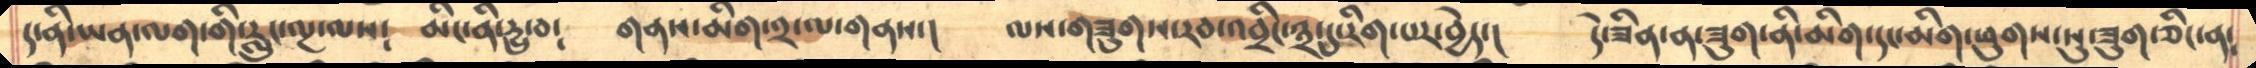ད་ནི་ཡན་ལག་གི་རླུང་ལྔ་ལས༴    མིང་ནི་དྱུ་བ༴    གནས་མིག་༢་ལ་གནས་།    ལས་གཟུགས་རབ་འབྲིང་༣་དུ་རིག་པར་བྱེད་།   དེ་ཟིན་ན་ཟུག་ནི་མིག་དང་མིག་ཕུགས་སུ་ཟུག་ཅིང་ན༴
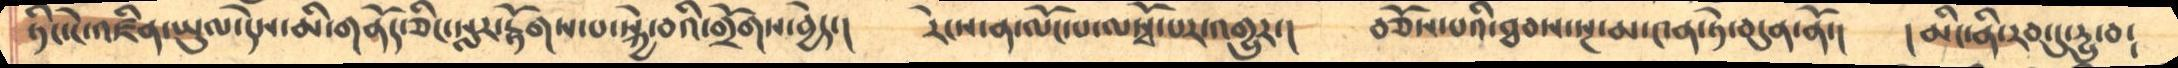ཏིང་ངེ་འཛིན་ཡུལ་དེས་མི་གནོད་ཅིང་སླར་རྟོགས་པ་སྐྱེ་བའི་གྲོགས་བྱེད་།    རེངས་ན་ལོང་པ་ལསྭོ་པར་འགྱུར་།   བཅོས་པའི་ཐབས་སྔ་མ་༤ན་ཏེ་བདུན་ནོ་།   །མིང་ནི་རབ་དུ་དྱུ་བ༴
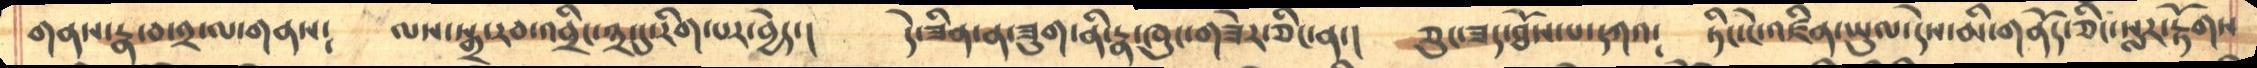གནས་རྣ་བ་༢་ལ་གནས༴      ལས་སྒྲ་རབ་འབྲིང་༣་དུ་རིག་པར་བྱེད་།   དེ་ཟིན་ན་ཟུག་ནི་རྣ་ཁུང་གཟེར་ཅིང་ན་།    ཅུང་ཟད་ཐོས་པ་དཀའ༴   ཏིང་ངེ་འཛིན་ཡུལ་དེས་མི་གནོད་ཅིང་སླར་རྟོགས
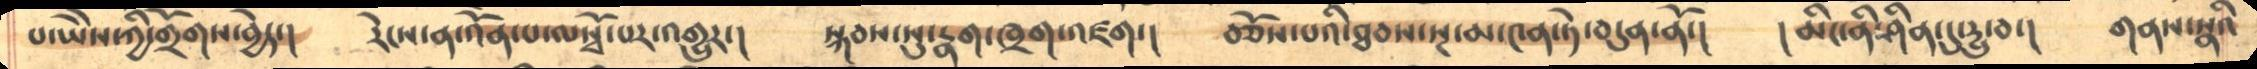པ་ཡཻས་ཀྱི་གྲོགས་བྱེད་།     རེངས་ན་འོན་པ་ལསྭོ་པར་འགྱུར་།      སྐབས་སུ་རྣག་ཁྲག་འཛག་།    བཅོས་པའི་ཐབས་སྔ་མ་༤ན་ཏེ་བདུན་ནོ་།    །མིང་ནི་ཤིན་དུ་དྱུ་བ་།   གནས་སྣའི
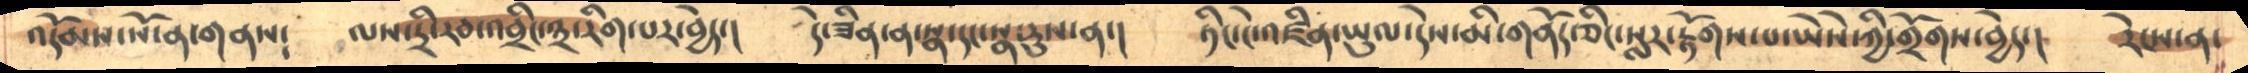འདོམས་སོ་ན་གནས༴     ལས་དྲི་རབ་འབྲིང་༣་རིག་པར་བྱེད་།     དེ་ཟིན་ན་སྣ་དང་སྣ་རུས་ན་།   ཏིང་ངེ་འཛིན་ཡུལ་དེས་མི་གནོད་ཅིང་སླར་རྟོགས་པ་ཡཻས་ཀྱི་གྲོགས་བྱེད་།   རེངས་ན་
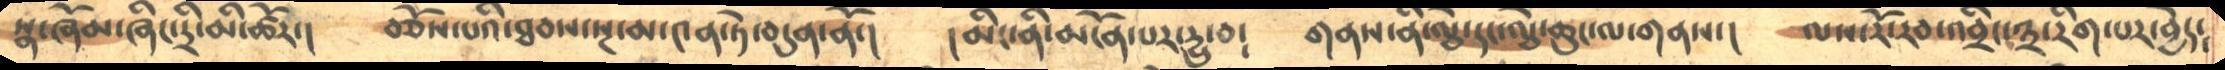སྣ་ཞོམ་ཞིང་དྲི་མི་ཚོར་།    བཅོས་པའི་ཐབས་སྔ་མ་༤ན་ཏེ་བདུན་ནོ་།     །མིང་ནི་མངོན་པར་དྱུ་བ༴   གནས་ནི་ལྕེ་དང་ལྕེ་ཆུང་ལ་གནས་།    ལས་རོ་རབ་འབྲིང་༣་རིག་པར་བྱེད༴
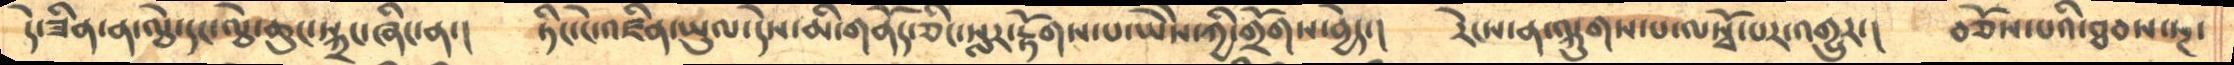དེ་ཟིན་ན་ལྕེ་དང་ལྕེ་ཆུང་སྐྲང་ཞིང་ན་།      ཏིང་ངེ་འཛིན་ཡུལ་དེས་མི་གནོད་ཅིང་སླར་རྟོགས་པ་ཡཻས་ཀྱི་གྲོགས་བྱེད་།     རེངས་ན་ལྐུགས་པ་ལསྭོ་པར་འགྱུར་།   བཅོས་པའི་ཐབས་སྔ་་
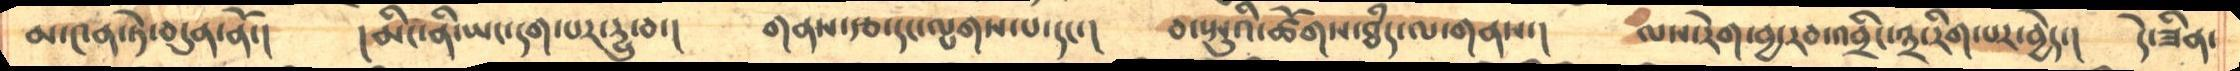མ་༤ན་ཏེ་བདུན་ནོ་།     །མིང་ནི་ཡང་དག་པར་དྱུ་བ་།      གནས་རྩ་དང་ལྤགས་པ་དང་།    བ་སྤུའི་ཚོགས་ཐཾད་ལ་གནས་།    ལས་རེག་བྱ་རབ་འབྲིང་༣་རིག་པར་བྱེད་།   དེ་ཟིན་
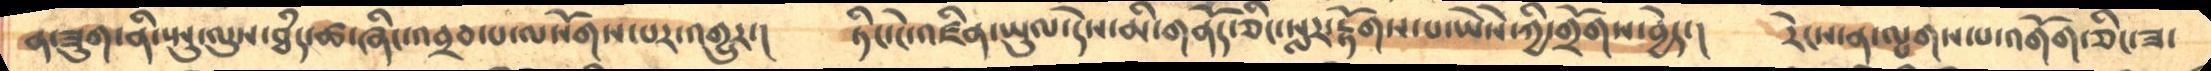ན་ཟུག་ནི་སྤུ་ལུས་ཐཾད་ཚ་ཞིང་འབྲབ་པ་ལསོགས་པར་འགྱུར་།     ཏིང་ངེ་འཛིན་ཡུལ་དེས་མི་གནོད་ཅིང་སླར་རྟོགས་པ་ཡཻས་ཀྱི་གྲོགས་བྱེད་།    རེངས་ན་ལྤགས་པ་འགོག་ཅིང་ཟ་
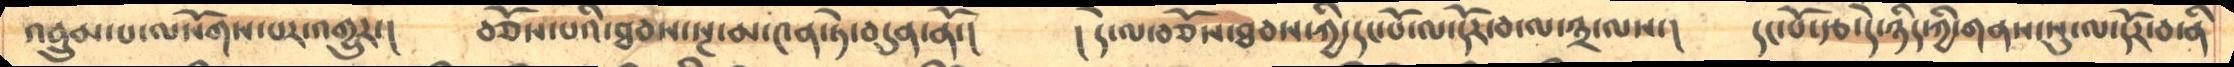འབྲུམ་པ་ལསོགས་པར་འགྱུར་།    བཅོས་པའི་ཐབས་སྔ་མ་༤ན་ཏེ་བདུན་ནོ་།     ། དེ་ལ་བཅོས་ཐབས་ཀྱི་དང་པོ་ལ་དོར་བ་ལ་༣་ལས་།་   དང་པོ་རྩ་དེ་ཉིད་ཀྱི་གནས་སུ་ལ་དོར་བ་ནི
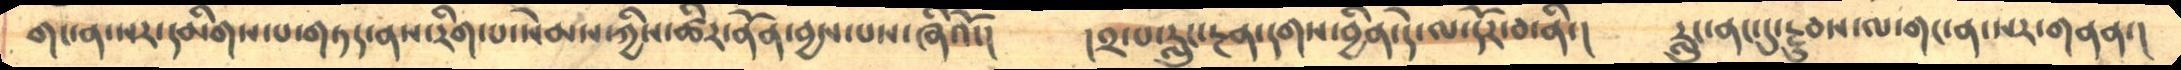གང་ན་སར་དམིགས་པ་གཏད་ནས་རིག་པ་སེམས་ཀྱིས་ཚིར་ནོན་བྱས་པས་ཞིའོ་།     །༢་པ་རླུང་རྔན་དགས་བྱིན་དེ་ལ་དོར་བ་ནི་།    རླུང་ནང་དུ་རྔུབས་ལ་གང་ན་སར་གནན་།
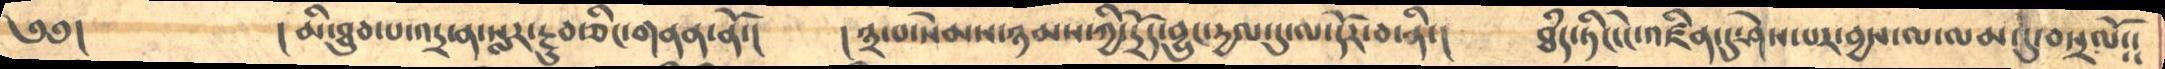༄༅།              །མི་ཐུབ་པ་འདྲ་ན་སླར་རྔུབ་ཅིང་གནན་ནོ་།     །༣་པ་སེམས་ཉམས་ཀྱི་དྲོད་བྱུང་དྱལ་དུ་ལ་དོར་བ་ནི་།   ཐཾད་ཏིང་ངེ་འཛིན་དུ་ཤེས་པར་བྱས་ལ་ལམ་དུ་བསྲལོ༴༴
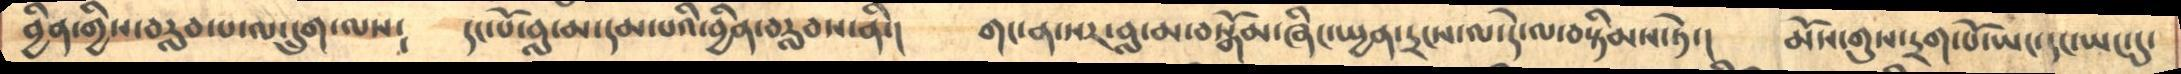བྱིན་གྱིས་བརླབ་པ་ལ་དྲུག་ལས༴    དང་པོ་བླ་མ་དམ་པའི་བྱིན་བརླབས་ནི་།    གང་ན་སར་བསྒོམ་ཞིང་སྤྱན་དྲངས་ལ་དེ་ལ་བསྟིམས་ཏེ་།   མོས་གུས་དྲག་པོ་ཡང་དང་ཡང་དུ་
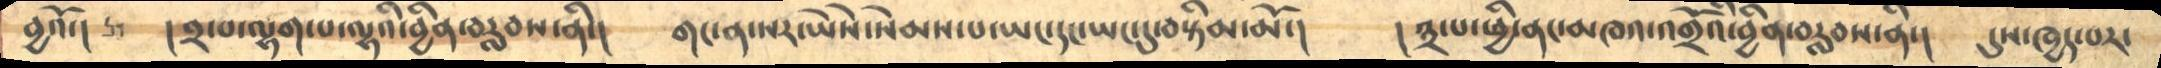བྱའོ་།    །༢་པ་ལྷག་པ་ལྷའི་བྱིན་བརླབས་ནི་།     གང་ན་སར་ཡཻས་སེམས་པ་ཡང་དང་ཡང་དུ་བསྟིམ་མོ་།   །༣་པ་ཕྱི་ནང་མཁའ་འགྲོའི་བྱིན་བརླབས་ནི་།   དུས་ཁྱད་པར་
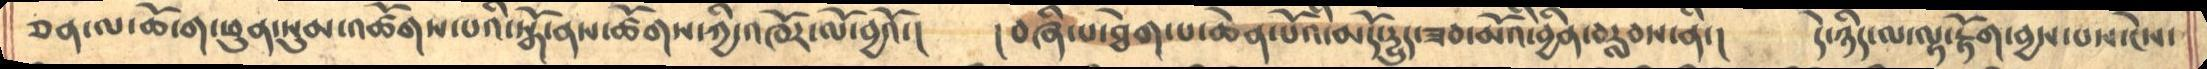ཅན་ལ་ཆོ་ག་ཕུན་སུམ་འཚོགས་པའི་སྒོ་ནས་ཚོགས་ཀྱི་འཁོར་ལོ་བྱའོ་།    །བཞི་པ་ཐེག་པ་ཆེན་པོའི་མདོ་དྱུད་ཟབ་མོའི་བྱིན་བརླབས་ནི་།   དེ་ཉིད་ལ་ལྟ་རྟོག་བྱས་པས་ངེས་
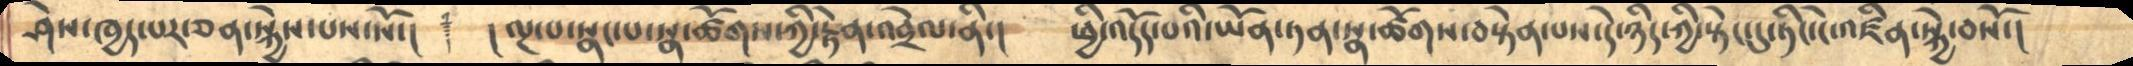ཤེས་ཁྱད་པར་ཅན་སྐྱེས་པས་སོ་།    ༈   ། ལྔ་པ་སྣང་པ་སྣ་ཚོགས་ཀྱི་རྟེན་འབྲེལ་ནི་།    ཕྱི་འདོད་པའི་ཡོན་ཏན་སྣ་ཚོགས་བསྟེན་པས་དེ་ཉིད་ཀྱི་སྟེང་དུ་ཏིང་ངེ་འཛིན་སྐྱེ་བསོ་།
